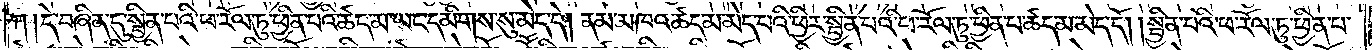ཀ །དེ་བཞིན་དུ་སྦྱིན་པའི་ཕ་རོལ་ཏུ་ཕྱིན་པའི་ཚད་མ་ཡང་དམིགས་སུ་མེད་དེ། ནམ་མཁའ་ཚད་མ་མེད་པའི་ཕྱིར་སྦྱིན་པའི་ཕ་རོལ་ཏུ་ཕྱིན་པ་ཚད་མ་མེད་དོ། །སྦྱིན་པའི་ཕ་རོལ་ཏུ་ཕྱིན་པ་
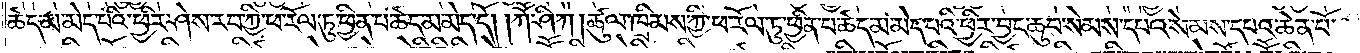ཚད་མ་མེད་པའི་ཕྱིར་ཤེས་རབ་ཀྱི་ཕ་རོལ་ཏུ་ཕྱིན་པ་ཚད་མ་མེད་དོ། །ཀཽ་ཤི་ཀ །ཚུལ་ཁྲིམས་ཀྱི་ཕ་རོལ་ཏུ་ཕྱིན་པ་ཚད་མ་མེད་པའི་ཕྱིར་བྱང་ཆུབ་སེམས་དཔའ་སེམས་དཔའ་ཆེན་པོ་
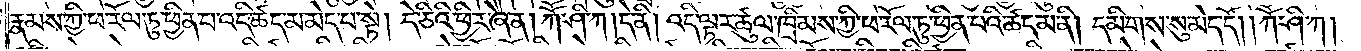རྣམས་ཀྱི་ཕ་རོལ་ཏུ་ཕྱིན་པ་འདི་ཚད་མ་མེད་པ་སྟེ། དེ་ཅིའི་ཕྱིར་ཞེ་ན། ཀཽ་ཤི་ཀ །དེ་ནི། འདི་ལྟར་ཚུལ་ཁྲིམས་ཀྱི་ཕ་རོལ་ཏུ་ཕྱིན་པའི་ཚད་མ་ནི། དམིགས་སུ་མེད་དོ། །ཀཽ་ཤི་ཀ།
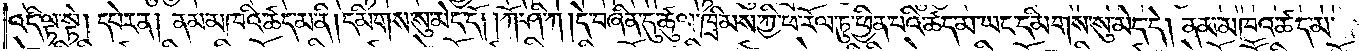འདི་ལྟ་སྟེ། དཔེར་ན། ནམ་མཁའི་ཚད་མ་ནི། དམིགས་སུ་མེད་དོ། ། ཀཽ་ཤི་ཀ །དེ་བཞིན་དུ་ཚུལ་ཁྲིམས་ཀྱི་ཕ་རོལ་ཏུ་ཕྱིན་པའི་ཚད་མ་ཡང་དམིགས་སུ་མེད་དེ། ནམ་མཁའ་ཚད་མ་
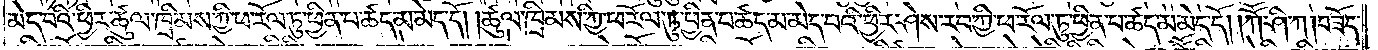མེད་པའི་ཕྱིར་ཚུལ་ཁྲིམས་ཀྱི་ཕ་རོལ་ཏུ་ཕྱིན་པ་ཚད་མ་མེད་དོ། །ཚུལ་ཁྲིམས་ཀྱི་ཕ་རོལ་ཏུ་ཕྱིན་པ་ཚད་མ་མེད་པའི་ཕྱིར་ཤེས་རབ་ཀྱི་ཕ་རོལ་ཏུ་ཕྱིན་པ་ཚད་མ་མེད་དོ། །ཀཽ་ཤི་ཀ །བཟོད་
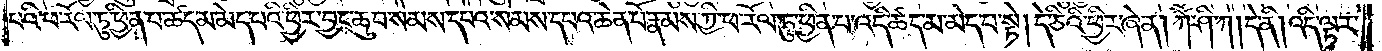པའི་ཕ་རོལ་ཏུ་ཕྱིན་པ་ཚད་མ་མེད་པའི་ཕྱིར་བྱང་ཆུབ་སེམས་དཔའ་སེམས་དཔའ་ཆེན་པོ་རྣམས་ཀྱི་ཕ་རོལ་ཏུ་ཕྱིན་པ་འདི་ཚད་མ་མེད་པ་སྟེ། དེ་ཅིའི་ཕྱིར་ཞེ་ན། ཀཽ་ཤི་ཀ །དེ་ནི། འདི་ལྟར་
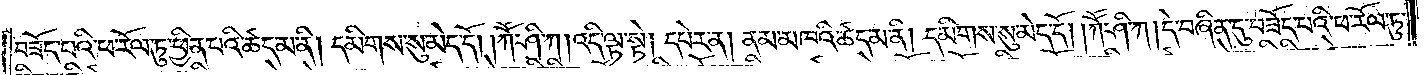བཟོད་པའི་ཕ་རོལ་ཏུ་ཕྱིན་པའི་ཚད་མ་ནི། དམིགས་སུ་མེད་དོ། །ཀཽ་ཤི་ཀ །འདི་ལྟ་སྟེ། དཔེར་ན། ནམ་མཁའི་ཚད་མ་ནི། དམིགས་སུ་མེད་དོ། །ཀཽ་ཤི་ཀ །དེ་བཞིན་དུ་བཟོད་པའི་ཕ་རོལ་ཏུ་
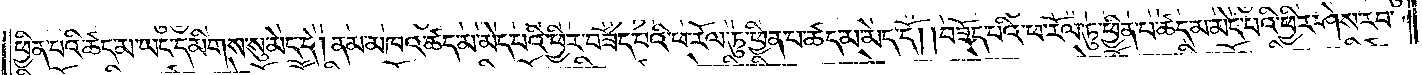ཕྱིན་པའི་ཚད་མ་ཡང་དམིགས་སུ་མེད་དེ། ནམ་མཁའ་ཚད་མེད་པའི་ཕྱིར་བཟོད་པའི་ཕ་རོལ་ཏུ་ཕྱིན་པ་ཚད་མ་མེད་དོ། །བཟོད་པའི་ཕ་རོལ་ཏུ་ཕྱིན་པ་ཚད་མ་མེད་པའི་ཕྱིར་ཤེས་རབ་
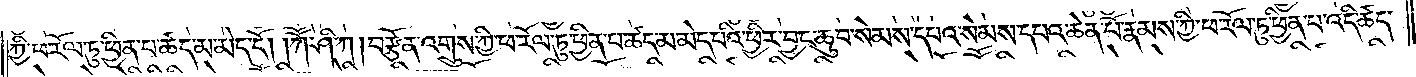ཀྱི་ཕ་རོལ་རུ་ཕྱིན་པ་ཚད་མ་མེད་དོ། །ཀཽ་ཤི་ཀ །བརྩོན་འགྲུས་ཀྱི་ཕ་རོལ་ཏུ་ཕྱིན་པ་ཚད་མ་མེད་པའི་ཕྱིར་བྱང་ཆུབ་སེམས་དཔའ་སེམས་དཔའ་ཆེན་པོ་རྣམས་ཀྱི་ཕ་རོལ་ཏུ་ཕྱིན་པ་འདི་ཚད་
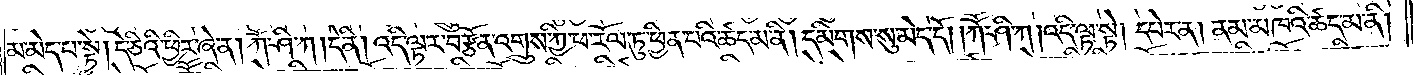མ་མེད་པ་སྟེ། དེ་ཅིའི་ཕྱིར་ཞེ་ན། ཀཽ་ཤི་ཀ །དེ་ནི། འདི་ལྟར་བརྩོན་འགྲུས་ཀྱི་ཕ་རོལ་ཏུ་ཕྱིན་པའི་ཚད་མ་ནི། དམིགས་སུ་མེད་དོ། །ཀཽ་ཤི་ཀ །འདི་ལྟ་སྟེ། དཔེར་ན། ནམ་མཁའི་ཚད་མ་ནི།
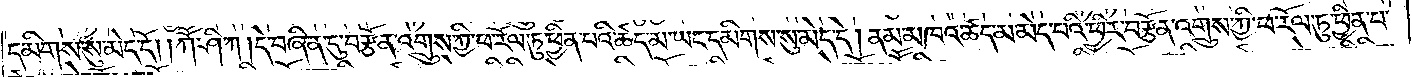དམིགས་སུ་མེད་དོ། །ཀཽ་ཤི་ཀ །དེ་བཞིན་དུ་བརྩོན་འགྲུས་ཀྱི་ཕ་རོལ་ཏུ་ཕྱིན་པའི་ཚད་མ་ཡང་དམིགས་སུ་མེད་དོ། ནམ་མཁའ་ཚད་མ་མེད་པའི་ཕྱིར་བརྩོན་འགྲུས་ཀྱི་ཕ་རོལ་ཏུ་ཕྱིན་པ་
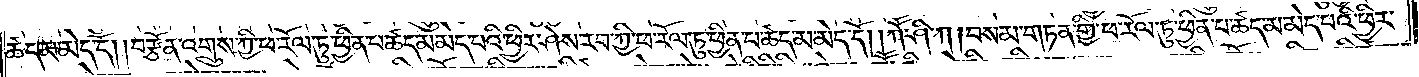ཚད་མ་མེད་དོ། །བརྩོན་འགྲུས་ཀྱི་ཕ་རོལ་ཏུ་ཕྱིན་པ་ཚད་མ་མེད་པའི་ཕྱིར་ཤེས་རབ་ཀྱི་ཕ་རོལ་ཏུ་ཕྱིན་པ་ཚད་མ་མེད་དོ༎ ཀཽ་ཤི་ཀ །བསམ་གཏན་གྱི་ཕ་རོལ་ཏུ་ཕྱིན་པ་ཚད་མ་མེད་པའི་ཕྱིར་
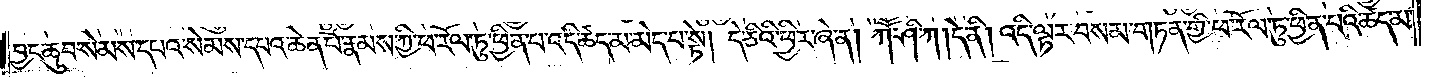བྱང་ཆུབ་སེམས་དཔའ་སེམས་དཔའ་ཆེན་པོ་རྣམས་ཀྱི་ཕ་རོལ་ཏུ་ཕྱིན་པ་འདི་ཚད་མ་མེད་པ་སྟེ། དེ་ཅིའི་ཕྱིར་ཞེ་ན། ཀཽ་ཤི་ཀ །དེ་ནི། འདི་ལྟར་བསམ་གཏན་གྱི་ཕ་རོལ་ཏུ་ཕྱིན་པའི་ཚད་མ་
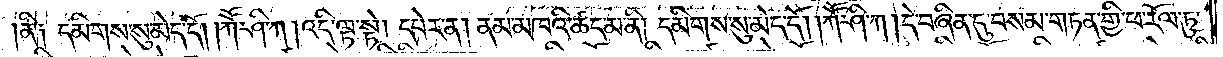ནི༑ དམིགས་སུ་མེད་དོ། །ཀཽ་ཤི་ཀ །འདི་ལྟ་སྟེ། དཔེར་ན། ནམ་མཁའི་ཚད་མ་ནི། དམིགས་སུ་མེད་དོ། །ཀཽ་ཤི་ཀ །དེ་བཞིན་དུ་བསམ་གཏན་གྱི་ཕ་རོལ་ཏུ་
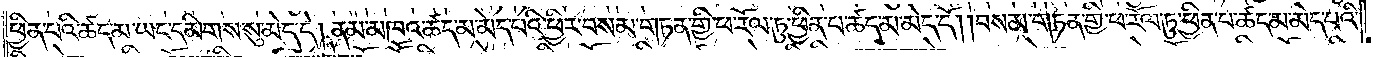ཕྱིན་པའི་ཚད་མ་ཡང་དམིགས་སུ་མེད་དེ། ནམ་མཁའ་ཚད་མ་མེད་པའི་ཕྱིར་བསམ་གཏན་གྱི་ཕ་རོལ་ཏུ་ཕྱིན་པ་ཚད་མ་མེད་དོ། །བསམ་གཏན་གྱི་ཕ་རོལ་ཏུ་ཕྱིན་པ་ཚད་མ་མེད་པའི་
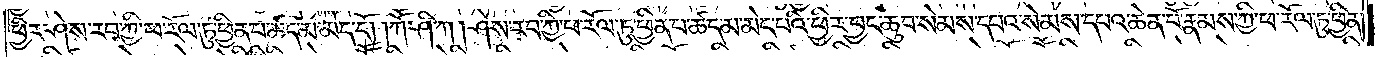ཕྱིར་ཤེས་རབ་ཀྱི་ཕ་རོལ་ཏུ་ཕྱིན་པ་ཚད་མ་མེད་དོ། །ཀཽ་ཤི་ཀ །ཤེས་རབ་ཀྱི་ཕ་རོལ་ཏུ་ཕྱིན་པ་ཚད་མ་མེད་པའི་ཕྱིར་བྱང་ཆུབ་སེམས་དཔའ་སེམས་དཔའ་ཆེན་པོ་རྣམས་ཀྱི་ཕ་རོལ་ཏུ་ཕྱིན་
